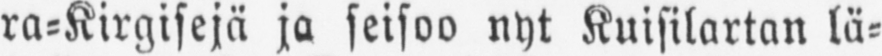ra-Kirgisejä ja seisoo nyt Kuisilartan lä-
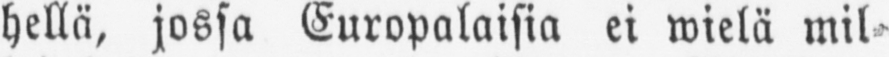hellä, jossa Europalaisia ei wielä mil-
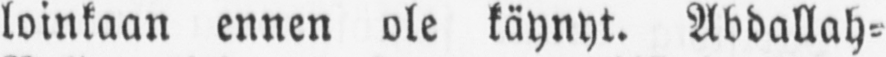loinkaan ennen ole käynyt. Abdallah-
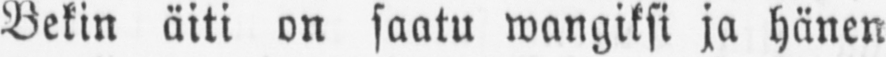Bekin äiti on saatu wangiksi ja hänen
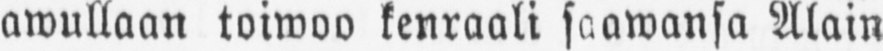awullaan toiwoo kenraali saawansa Alain
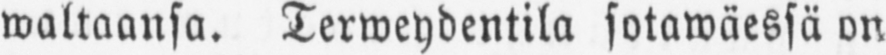waltaansa. Terweydentila sotawäessä on
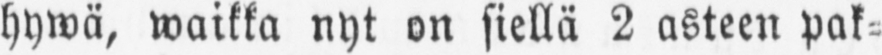hywä, waikka nyt on siellä 2 asteen pak-
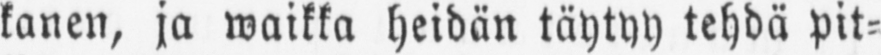kanen, ja waikka heidän täytyy tehdä pit-
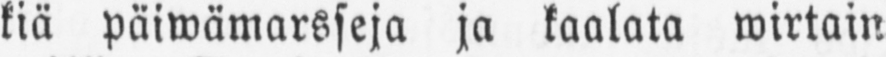kiä päiwämarsseja ja kaalata wirtain
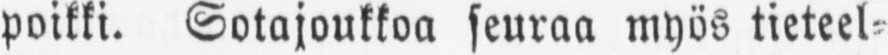poikki. Sotajoukkoa seuraa myös tieteel-
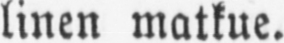linen matkue.
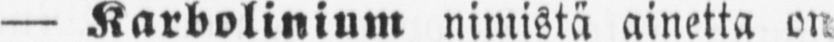— Karbolinium nimistä ainetta on
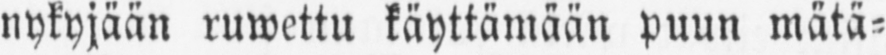nykyjään ruwettu käyttämään puun matä-
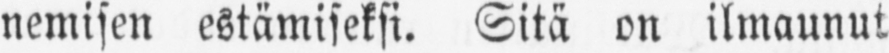nemisen estämiseksi. Sitä on ilmaunut
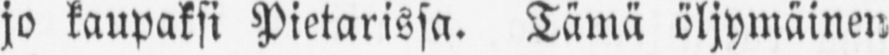jo kaupaksi Pietarissa. Tämä öljymäinen
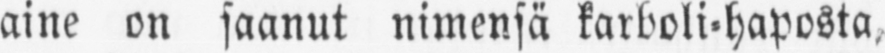aine on saanut nimensä karboli-haposta,
